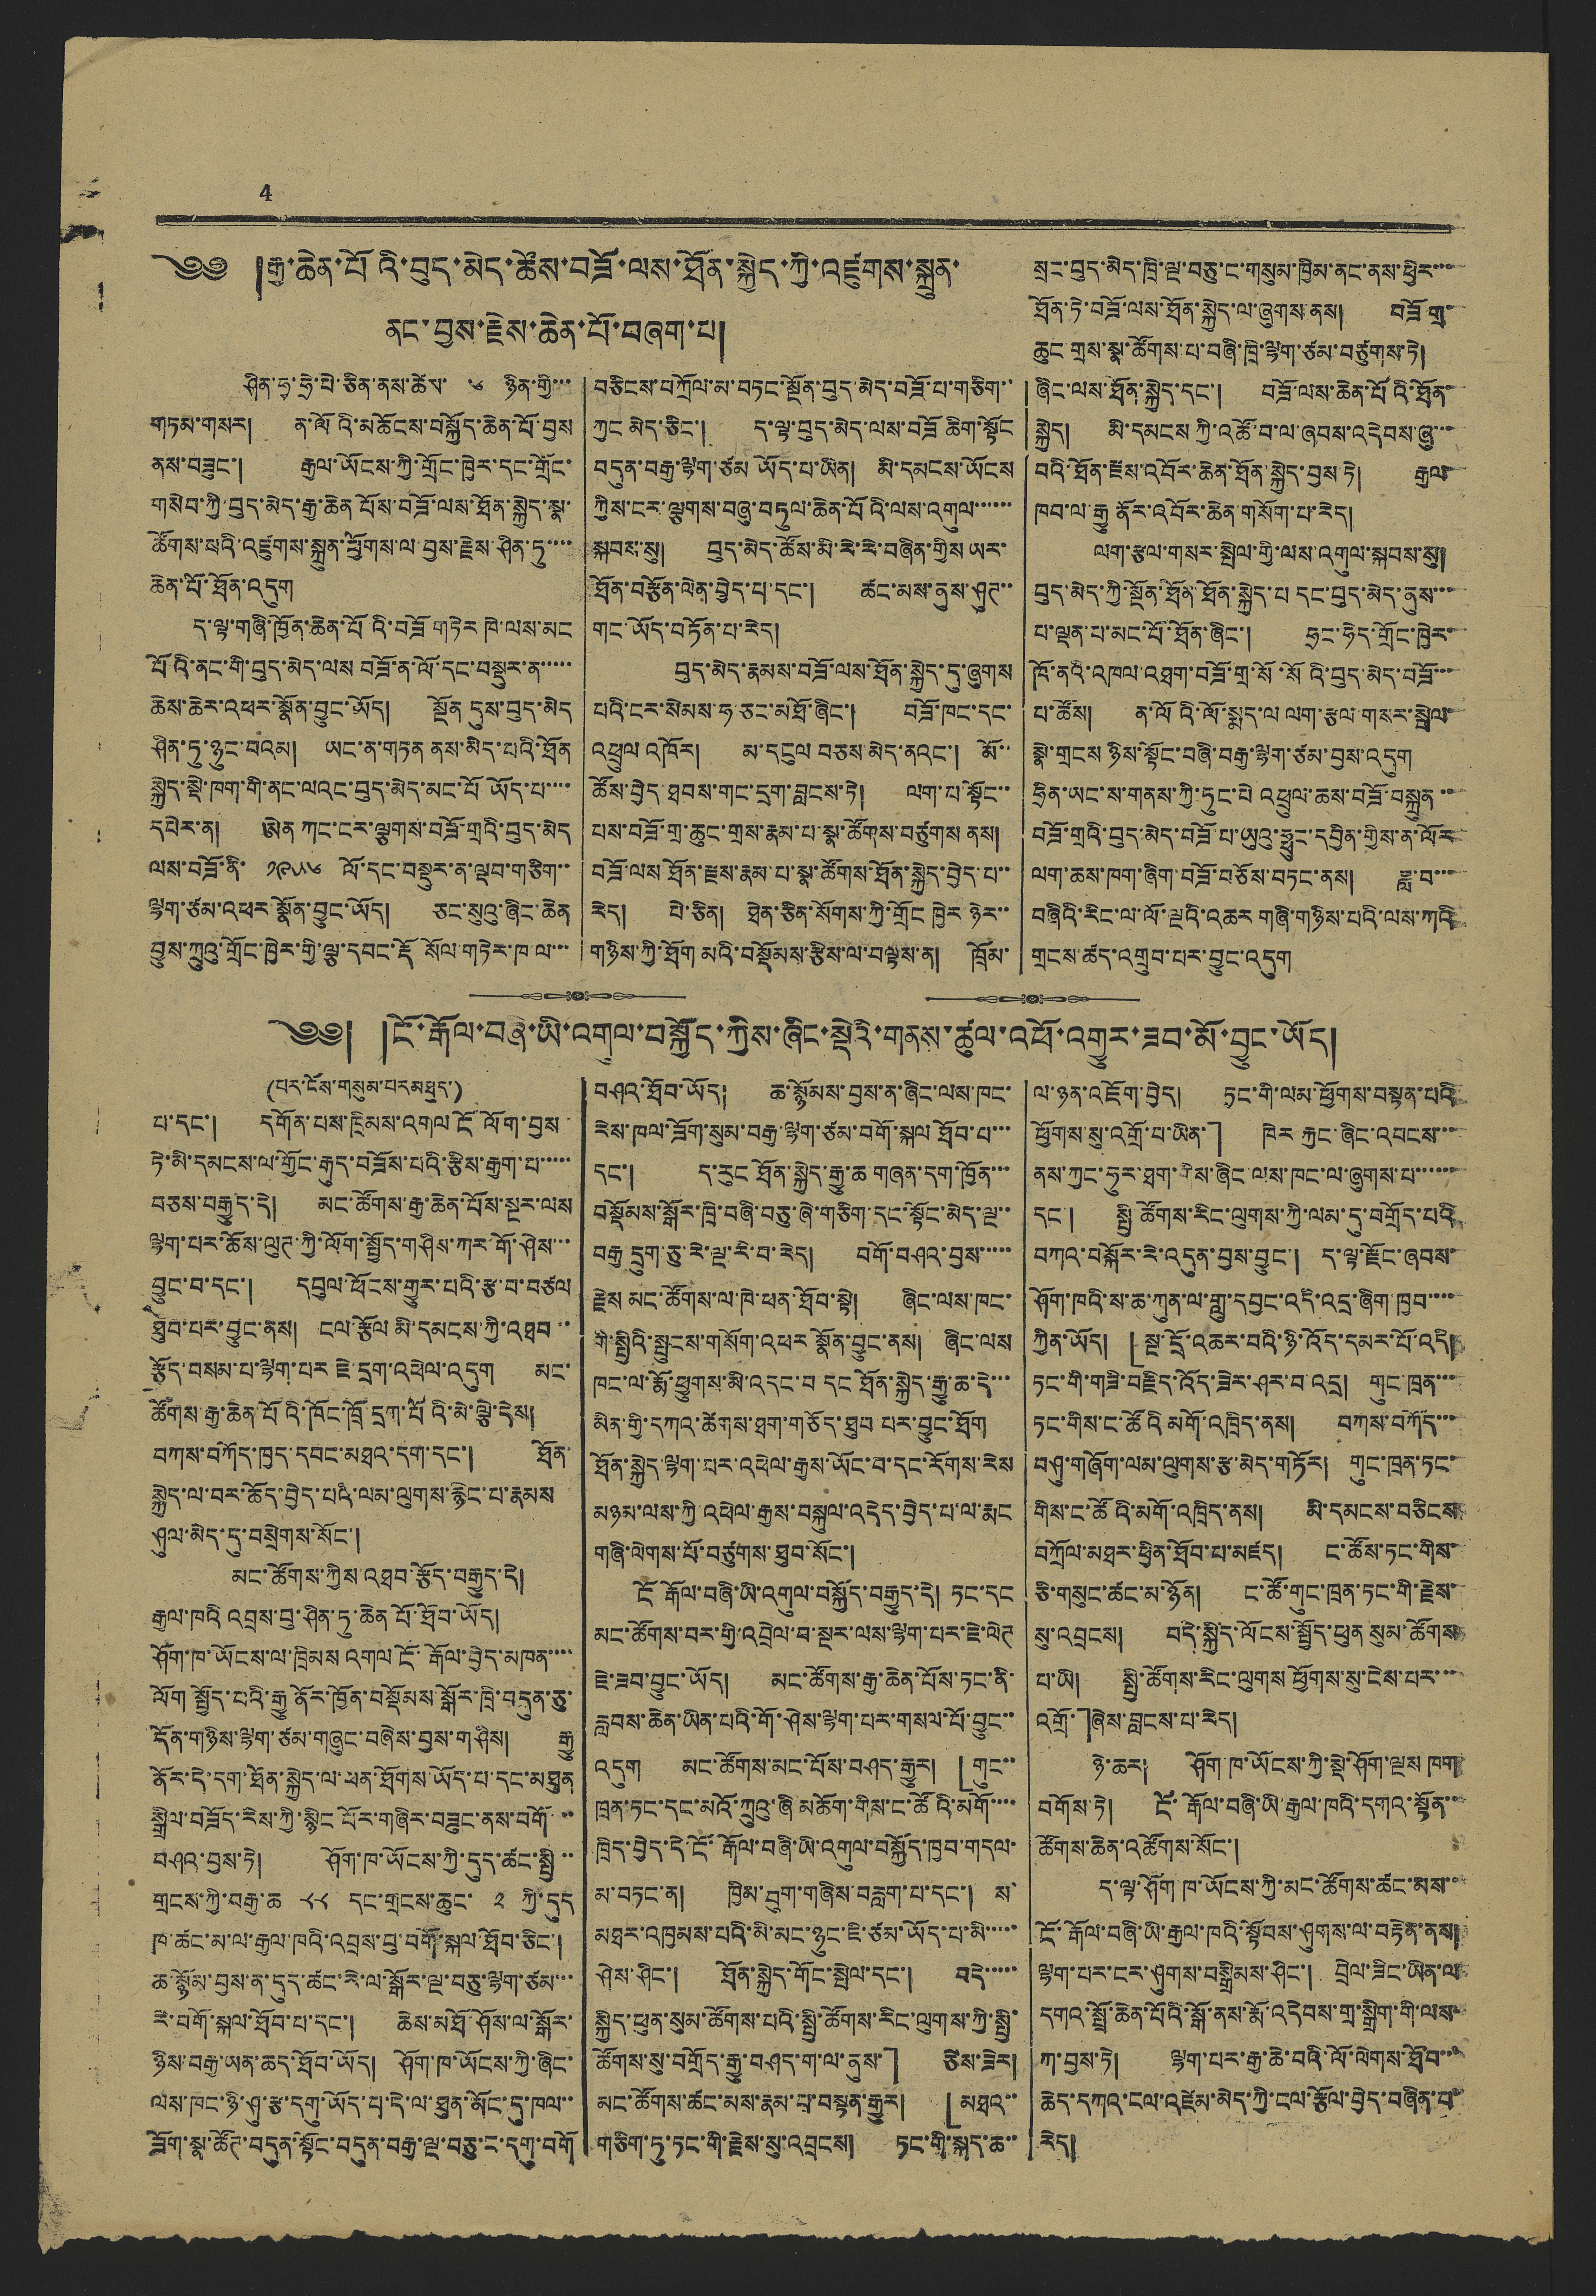4
༄༅ །རྒྱ་ཆེན་པོའི་བུད་མེད་ཚོས་བཟོ་ལས་ཐོན་སྐྱེད་ཀྱི་འཛུགས་སྐྲུན་
ནང་བྱས་རྗེས་ཆེན་པོ་བཞག་པ།
ཤིན་ཧྭ་ཧྲེ་པེ་ཅིན་ནས་ཚོས་ ༦ ཉིན་གྱི་་་
གཏམ་གསར། ན་ལོའི་མཆོངས་བསྐྱོད་ཆེན་པོ་བྱས
ནས་བཟུང་། རྒྱལ་ཡོངས་ཀྱི་གྲོང་ཁྱེར་དང་གྲོང་
གསེབ་ཀྱི་བུད་མེད་རྒྱ་ཆེན པོས་བཟོ་ལས་ཐོན་སྐྱེད་སྣ་
ཚོགས་པའི་འཛུགས་སྐྲུན་ཕྱོགས་ལ་བྱས་རྗེས་ཤིན་ཏུ་་་་
ཆེན་པོ་ཐོན་འདུག
ད་ལྟ་གཞི་ཁྱོན་ཆེན་པོའི་བཟོ གཏེར ཁེ་ལས་མང
པོའི་ནང་གི་བུད་མེད་ལས་བཟོ་ན་ལོ་དང་བསྡུར་ན་་་་་
ཆེས་ཆེར་འཕར་སྣོན་བྱུང་ཡོད། སྔོན དུས་བུད་མེད
ཤིན་ཏུ་ཉུང་བའམ། ཡང་ན་གཏན་ནས་མེད་པའི་ཐོན
སྐྱེད་སྡེ་ཁག་གི་ནང་ལའང་བུད་མེད་མང་པོ ཡོད་པ་་་་
དཔེར་མ། ཨེན ཀང་ངར་ལྕགས་བཟོ་གྲའི་བུད་མེད
ལས་བཟོ་ནི་ ༡༩༥༦ ལོ་དང་བསྡུར་ན་ལྡབ་གཅིག་་
ལྷག་ཙམ་འཕར་སྣོན་བྱུང་ཡོད། ཅང་སུའུ་ཞིང་ཆེན
བྱུས་ཀྲུའུ་གྲོང་ཁྱེར་གྱི་ལྕ་དབང་རྡོ སོལ་གྲེར་ཁ་ལ་་་
བཅིངས་བཀྲོལ་མ་བཏང་སྔོན་བུད་མེད་བཟོ་པ་གཅིག་་
ཀྱང་མེད་ཅིང་། ད་ལྟ་བུད་མེད་ལས་བཟོ ཆིག་སྟོང
བདུན་བརྒྱ་ལྷག་ཙམ ཡོད་པ་ཡིན། མི་དམངས་ཡོངས
ཀྱིས་ངར་ལྕགས་བཞུ་བཏུལ་ཆེན་པོའི་ལས་འགུལ་་་་་་
སྐབས་སུ། བུད་མེད་ཚོས་མི་རེ་རེ་བཞིན་གྱིས ཡར་
ཐོན་བརྩོན་ལེན་བྱེད་པ་དང་། ཚང་མས་ནུས་ཤུཊ་་
གང་ཡོད་བཏོན་པ་རེད།
བུད་མེད་རྣམས་བཟོ་ལས་ཐོན་སྐྱེད་དུ་ཞུགས
པའི་ངར་སེམས་ཧ་ཅང་མཐོ་ཞིང་། བཟོ་ཁང་དང་
འཕྲུལ་འཁོར། མ་དངུལ བཅས་མེད་ནའང་། མོ་་
ཚོས་བྱེད་ཐབས་གང་དྲག་བླངས་ཏེ། ལག་པ་སྟོང་་
པས་བཟོ་གྲ་ཆུང་གྲས་རྣམ་པ་སྣ་ཚོགས་བཙུགས ནས།
བཟོ་ལས ཐོན་རྫས་རྣམ་པ་སྣ་ཚོགས་ཐོན་སྐྱེད་བྱེད་པ་་
རེད། པེ་ཅིན། ཐེན་ཅིན་སོགས་ཀྱི་གྲོང ཁྱེར་ཉེར་་
གཉིས་ཀྱི་ཐོག་མའི་བསྡོམས་རྩིས་ལ་བལྟས་ན། ཁྲོམ་
སྲུང་བུད་མེད་ཁྲི་ལྔ་བཅུ་ང་གསུམ་ཁྱིམ་ནང་ནས་ཕྱིར་་་
ཐོན་ཏེ་བཟོ་ལས་ཐོན་སྐྱེད་ལ་ཞུགས་ནས། བཟོ་གྲ་
ཆུང གྲས་སྣ་ཚོགས་པ་བཞི་ཁྲི་ལྷག་ཙམ་བཙུགས་ཏེ།
ཞིང་ལས་ཐོན་སྐྱེད་དང་། བཟོ་ལས་ཆེན་པོའི་ཐོན་
སྐྱེད། མི་དམངས་ཀྱི་འཚོ་བ་ལ་ཞབས་འདེབས་ཞུ་་་
བའི་ཐོན་རྫས་འབོར་ཆེན་ཐོན་སྐྱེད་བྱས་ཏེ། རྒྱལ
ཁབ་ལ་རྒྱུ ནོར་འབོར་ཆེན་གསོག་པ་རེད།
ལག་རྩལ་གསར་སྤེལ་གྱི་ལས་འགུལ་སྐབས་སུ།
བུད་མེད་ཀྱི་སྔོན་ཐོན་སྐྱེད་པ དང་བུད་མེད་ནུས་་་
པ་ལྡན་པ་མང་པོ་ཐོན་ཞིང་། ཧྲང་ཧེད་གྲོང་ཁྱེར་
ཁོ་ནའི་འཁལ་འཐག་བཟོ་གྲ་སོ་སོའི་བུད་མེད་བཟོ་་་
པ་ཚོས། ན་ལོའི་ལོ་སྨད་ལ ལག་རྩལ་གསར་སྤེལ་
སྣེ་གྲངས ཉིས་སྟོང་བཞི་བརྒྱ་ལྷག་ཙམ་བྱས་འདུག
ཧྲིན་ཡང་ས་གནས་ཀྱི་ཏུང་པེ འཕྲུལ་ཆས་བཟོ་བསྐྲུན་་
བཟོ་གྲའི་བུད་མེད་བཟོ་པ་ཡུའུ་ཧྥུང་དབྱིན་གྱིས་ན་ལོར
ལག་ཆས་ཁག་ཞིག་བཟོ་བཅོས་བཏང་ནས། ཟླ་བ་་་
བཞིའི་རིང་ལ་ལོ་ལྔའི་འཆར གཞི་གཉིས་པའི་ལས་ཀའི
གྲངས་ཚད་འགྲུབ་པར་བྱུང་བདུག
༄༅། །ངོ་རྒོལ་བཞི་ཡི་འགུལ་བསྐྱོད་ཀྱིས་ཞིང་སྡེའི་གནས་ཚུལ་འཕོ་འགྱུར་ཟབ་མོ་བྱུང་ཡོད།
(པར་ངོས་གསུམ་པར་མཐུད་)
པ་དང་། དགོན་པས་ཁྲིམས་འགལ་ངོ ལོག་བྱས
ཏེ་མི་དམངས་ལ་གྱོང་རྒུད་བཟོས་པའི་རྩིས་རྒྱག་པ་་་་་
བཅས་བརྒྱུད་དེ། མང་ཚོགས་རྒྱ་ཆེན་པོས་སྔར་ལས
ལྷག་པར་ཆོས་ལུཊ་ཀྱི་ལོག་སྤྱོད་གཤིས་ཀར་གོ་ཤེས་་་
བྱུང་བ་དང་། དབུལ་ཕོངས་གྱུར་པའི་རྩ་བ་བཙལ
ཐུབ་པར་བྱུང་ནས། ངལ་རྩོལ་མི་དམངས་ཀྱི་འཐབ་་
རྩོད་བསམ་པ་ལྷག་པར་ཇེ་དྲག་འཕེལ་འདུག མང་
ཚོགས་རྒྱ་ཆེན་པོའི་ཁོང་ཁྲོ་དྲག་པོའི་མེ་ལྕེ་དེས།
བཀས་བཀོད་ཁྱད་དབང་མཐའ་དག་དང་། ཐོན་
སྐྱེད་ལ་བར་ཆོད་བྱེད་པའི་ལམ་ལུགས་རྙིང་པ་རྣམས
ཤུལ་མེད་དུ་བསྲེགས་སོང་།
མང་ཚོགས་ཀྱིས་འཐབ་རྩོད་བརྒྱུད་དེ།
རྒྱལ་ཁའི འབྲས་བུ་ཤིན་ཏུ་ཆེན པོ་ཐོབ་ཡོད།
ཤོག་ཁ་ཡོངས་ལ་ཁྲིམས འགལ ངོ་རྒོལ་བྱེད་མཁན་་་་
ལོག སྤྱོད་པའི་རྒྱུ ནོར་ཁྱོན་བསྡོམས་སྒོར་ཁྲི་བདུན་ཅུ་
དོན་གཉིས་ལྷག་ཙམ་གཞུང་བཞེས་བྱས་གཤིས། རྒྱུ
ནོར་དེ་དག་ཐོན་སྐྱེད་ལ་ཕན་ཐོགས་ཡོད་པ་དང་མཐུན
སྒྲིལ་བཟོད་རིས་ཀྱི་སྙིང པོར་གཞིར་བཟུང་ནས་བགོ་་་
བཤའ་བྱས་ཏེ། ཤོག་ཁ་ཡོངས་ཀྱི་དུད་ཚང་སྤྱི་་
གྲངས་ཀྱི་བརྒྱ་ཆ ༨༨ དང་གྲངས་ཆུང་ ༢ ཀྱི་དུད
ཁ་ཚང་མ་ལ་རྒྱལ་ཁའི་འབྲས་བུ་བགོ་སྐལ་ཐོབ་ཅིང་།
ཆ་སྙོམ་བྱས་ན་དུད་ཚང་རེ་ལ་སྒོར་ལྔ་བཅུ་ལྷག་ཙམ་་་
རེ་བགོ་སྐལ་ཐོབ་པ་དང་། ཆེས་མཐོ་ཤོས་ལ་སྒོར་
ཉིས་བརྒྱ་ཡན་ཆད་ཐོབ་ཡོད། ཤོག་ཁ་ཡོངས་ཀྱི་ཞོང་
ལས་ཁང་ཉི་ཤུ་རྩ་དགུ་ཡོད་པ་དེ་ལ་ཐུན་མོང་དུ་ཁལ་་
ཟོག་སྣ་ཚོཊ་བདུན་སྟོང་བདུན་བརྒྱ་ལྔ་བཅུ་ང་དགུ་བགོ
བཤའ་ཐོབ་ཡོད། ཆ་སྙོམས་བྱས་ན་ཞོང་ལས་ཁང་
རེས་ཁལ་ཟོག་སུམ་བརྒྱ་ལྷག་ཙམ་བགོ་སྐལ ཐོབ་པ་་་
དང་། ད་རུང ཐོན་སྐྱེད་རྒྱུ་ཆ གཞན་དག་ཁྱོན་་་
བསྡོམས་སྒོར་ཁྲི་བཞི་བཅུ་ཞེ་གཅིག་དང་སྟོང་མེད་ལྔ་་
བརྒྱ དྲུག་ཅུ་རེ་ལྔ་རི་བ་རེད། བགོ་བཤའ་བྱས་་་་་
རྗེས མང་ཚོགས་ལ་ཁེ་ཕན་ཐོབ་སྟེ། ཞིང་ལས་ཁང་
གི་སྤྱིའི་སྤུངས་གསོག་འཕར སྣོན་བྱུང་ནས། ཞིང་ལས
ཁང་ལ་རྨོ་ཕྱུགས་མི་འདང་བ དང ཐོན་སྐྱེད་རྒྱུ་ཆ་དེ་་་
མིན་གྱི་དཀའ་ཚེགས་ཐག་གཅོད་ཐུབ པར་བྱུང་ཐོག
ཐོན་སྐྱེད་ལྷག་པར་འཕེལ་རྒྱས་ཡོང་བ་དང་རོགས་རེས
མཉམ་ལས་ཀྱི་འཕེལ་རྒྱས་བསྐུལ་འདེད་བྱེད་པ་ལ་རྨང
གཞི་ལེགས་པོ་བཙུགས་ཐུབ་སོང་།
ངོ རྒོལ་བཞི་ཡི་འགུལ་བསྐྱོད་བརྒྱུད་དེ། ཏང་དང
མང་ཚོགས་བར་གྱི་འབྲེལ་བ་སྔར་ལས་ལྷག་པར་ཇེ་ལེཊ
ཇེ་ཟབ་བྱུང་ཡོད། མང་ཚོགས་རྒྱ་ཆེན་པོས་ཏང་ནི་
རླབས་ཆེན་ཡིན་པའི་གོ་ཤེས་ལྷག་པར་གསལ་པོ་བྱུང་་
འདུག མང་ཚོགས་མང་པོས་བཤད་རྒྱུར། 「གུང་་
ཁྲན་ཏང་དང་མའོ་ཀྲུའུ་ཞི མཆོག་གིས་ང་ཚོའི་མགོ་་་་
ཁྲིད་བྱེད་དེ་ངོ་རྒོལ་བཞི་ཡི་འགུལ་བསྐྱོད་ཁྱབ་གདལ་
མ་བཏང་མ། ཁྱིམ་བུག་གཞིས་བརླག་པ་དང་། ས་
མཐར་འཁྱམས་པའི་མི་མང་ཉུང་ཇི་ཙམ་ཡོད་པ་མི་་་་་
ཤེས་ཤིང་། ཐོན་སྐྱེད་གོང་སྤེལ་དང་། བདེ་་་་་
སྐྱིད་ཕུན་སུམ་ཚོགས་པའི་སྤྱི་ཚོགས་རིང་ལུགས་ཀྱི་སྤྱི་
ཚོགས་སུ་བགྲོད་རྒྱུ་བཤད་ག་ལ་ནུས་」 ཅེས་ཟེར།
མང་ཚོགས་ཚང་མས་རྣམ་པ་བསྟན་རྒྱུར། 「མཐའ་་
གཅིག་ཏུ་ཏང་གི་རྗེས་སུ་འབྲངས། ཏང་གི་སྐད་ཆ་་
ལ་ཉན་འཇོག་བྱེད། ཏང་གི་ལམ་ཕྱོགས་བསྟན་པའི་
ཕྱོགས་སུ་འགྲོ་པ་ཡིན་」ཁེར རྐྱང་ཞིང་འབངས་་་
ནས་ཀྱང་ཧུར་ཐག་གིས་ཞིང་ལས་ཁང་ལ་ཞུགས་པ་་་་་་་
དང་། སྤྱི་ཚོགས་རིང་ལུགས་ཀྱི་ལམ་དུ་བགྲོད་པའི
བཀའ་བསྐོར་རེ་བདུན་བྱས་བྱུང་། ད་ལྟ་རྫོང་ཞབས་
ཤོག་ཁའི་ས་ཆ་ཀུན་ལ་གླུ་དབྱང་འདི་འདྲ་ཞིག་ཁྱབ་་་་
ཀྱིན་ཡོད། 「སྔ་དྲོ་འཆར་བའི་ཉི་འོད་དམར་པོ་འདི།
ཏང་གི་གཟི་བརྗིད་འོད་ཟེར་ཤར་བ་འདྲ། གུང་ཁྲན་་་
ཏང་གིས་ང་ཚོའི མགོ་འཁྲིད་ནས། བཀས་བཀོད་་་
བཤུ་གཞོག་ལམ་ལུགས་རྩ་མེད་གཏོར། གུང་ཁྲན་ཏང་
གིས་ང་ཚོའི་མགོ་འཁྲིད་ནས། མི་དམངས་བཅིངས
བཀྲོལ་མཐར་ཕྱིན་ཐོབ་པ་མཛད། ང་ཚོས་ཏང་གིས་
ཅི་གསུང་ཚང་མ་ཉོན། ང་ཚོ་གུང་ཁྲན་ཏང་གི་རྗེས་
སུ་འབྲངས། བདེ་སྐྱིད་ལོངས་སྤྱོད་ཕུན སུམ་ཚོགས
པ་ཡི། སྤྱི་ཚོགས་རིང་ལུགས ཕྱོགས་སུ་ངེས་པར་་་
འགྲོ་」ཞེས་བླངས་པ་རེད།
ཉེ་ཆར། ཤོག་ཁ་ཡོངས་ཀྱི་སྡེ་ཤོག་ལྔས ཁག
བགོས་ཏེ། ངོ་རྒོལ་བཞི་ཡི་རྒྱལ་ཁའི་དགའ་སྟོན་་
ཚོགས་ཆེན་འཚོགས་སོང་།
ད་ལྟ་ཤོག ཁ་ཡོངས་ཀྱི་མང་ཚོགས་ཚང་མས་་
ངོ་རྒོལ་བཞི་ཡི་རྒྱལ་ཁའི་སྟོབས་ཤུགས་ལ་བརྟེན་ནས།
ལྷག་པར་ངར་ཤུགས་བསྒྲིམས་ཤིང་། བྲེལ་ཟིང་ཡིན་ལ
དགའ་སྤྲོ་ཆེན་པོའི་སྒོ་ནས་རྨོ་འདེབས་གྲ་སྒྲིག་གི་ལས་
ཀ་བྱས་ཏེ། ལྷག་པར་རྒྱ་ཆེ་བའི་ལོ་ལེགས་ཐོབ་་་
ཆེད་དཀའ་ངལ་འཛེམ་མེད་ཀྱི་ངལ་རྩོལ་བྱེད་བཞིན་བ་
རེད།
